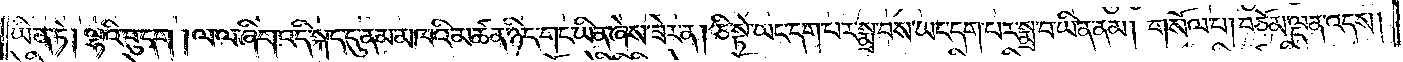ཡིན་ཏེ། ལྷའི་བུ་དག། ལ་ལ་ཞིག་འདི་སྐད་དུ་ནམ་མཁའི་མཚན་ཉིད་གང་ཡིན་ཞེས་ཟེར་ན། ཅི་སྟེ་ཡང་དག་པར་སྨྲ་བས་ཡང་དག་པར་སྨྲ་བ་ཡིན་ནམ། གསོལ་པ། བཅོམ་ལྡན་འདས།
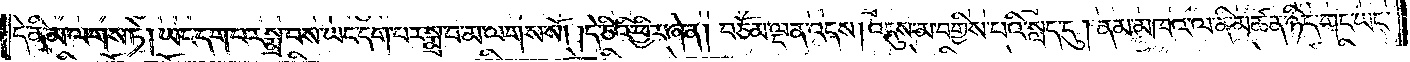དེ་ནི་མ་ལགས་ཏེ། ཡང་དག་པར་སྨྲ་བས་ཡང་དག་པར་སྨྲ་བ་མ་ལགས་སོ། །དེ་ཅིའི་ཕྱིར་ཞེ་ན། བཅོམ་ལྡན་འདས། འདུས་མ་བགྱིས་པའི་སླད་དུ། ནམ་མཁའ་ལ་ནི་མཚན་ཉིད་གང་ཡང་
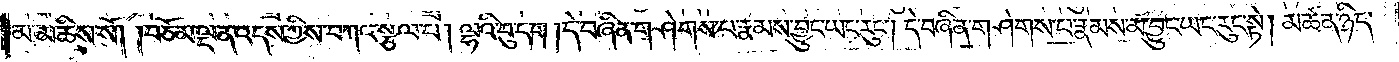མ་མཆིས་སོ། །བཅོམ་ལྡན་འདས་ཀྱིས་བཀའ་སྩལ་པ། ལྷའི་བུ་དག། དེ་བཞིན་གཤེགས་པ་རྣམས་བྱུང་ཡང་རུང༌། དེ་བཞིན་གཤེགས་པ་རྣམས་མ་བྱུང་ཡང་རུང་སྟེ། མཚན་ཉིད་
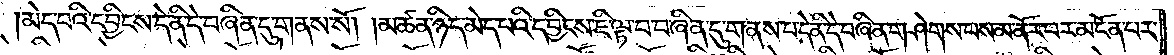མེད་པའི་དབྱིངས་དེ་ནི་དེ་བཞིན་དུ་གནས་སོ། །མཚན་ཉིད་མེད་པའི་དབྱིངས་ཇི་ལྟ་བ་བཞིན་དུ་གནས་པ་དེ་ནི་དེ་བཞིན་གཤེགས་པས་མ་ནོར་བར་མངོན་པར་
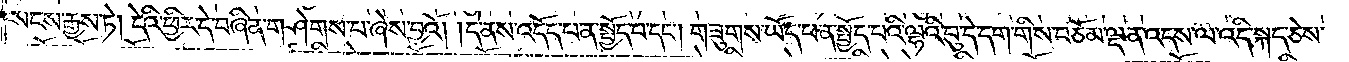སངས་རྒྱས་ཏེ། དེའི་ཕྱིར་དེ་བཞིན་གཤེགས་པ་ཞེས་བྱའོ། །དེ་ནས་འདོད་པ་ན་སྤྱོད་པ་དང༌། གཟུགས་ཡོད་པ་ན་སྤྱོད་པའི་ལྟའི་བུ་དེ་དག་གིས་བཅོམ་ལྡན་འདས་ལ་འདི་སྐད་ཅེས་
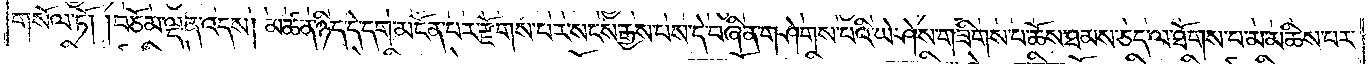གསོལ་ཏོ། །བཅོམ་ལྡན་འདས། མཚན་ཉིད་དེ་དག་མངོན་པར་རྫོགས་པར་སངས་རྒྱས་པས་དེ་བཞིན་གཤེགས་པའི་ཡེ་ཤེས་གཟིགས་པ་ཆོས་ཐམས་ཅད་ལ་ཐོགས་པ་མ་མཆིས་པར་
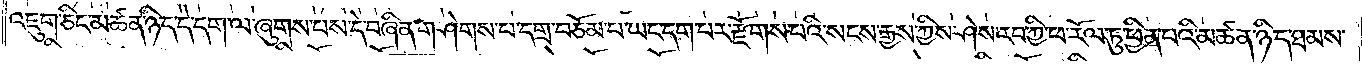འཇུག་ཅིང་མཚན་ཉིད་དེ་དག་ལ་ཞུགས་པས་དེ་བཞིན་གཤེགས་པ་དགྲ་བཅོམ་པ་ཡང་དག་པར་རྫོགས་པའི་སངས་རྒྱས་ཀྱིས་ཤེས་རབ་ཀྱི་ཕ་རོལ་ཏུ་ཕྱིན་པའི་མཚན་ཉིད་ཐམས་
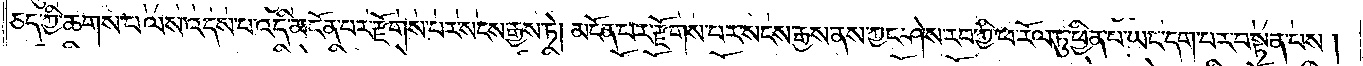ཅད་ཀྱི་ཆགས་པ་ལས་འདས་པ་འདི་མངོན་པར་རྫོགས་པར་སངས་རྒྱས་ཏེ། མངོན་པར་རྫོགས་པར་སངས་རྒྱས་ནས་ཀྱང་ཤེས་རབ་ཀྱི་ཕ་རོལ་ཏུ་ཕྱིན་པ་ཡང་དག་པར་བསྟན་པས།
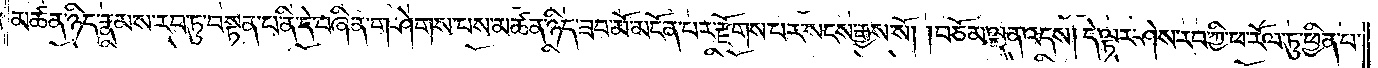མཚན་ཉིད་རྣམས་རབ་ཏུ་བསྟན་པ་ནི་དེ་བཞིན་གཤེགས་པས་མཚན་ཉིད་ཟབ་མོ་མངོན་པར་རྫོགས་པར་སངས་རྒྱས་སོ། །བཅོམ་ལྡན་འདས། དེ་ལྟར་ཤེས་རབ་ཀྱི་ཕ་རོལ་ཏུ་ཕྱིན་པ་
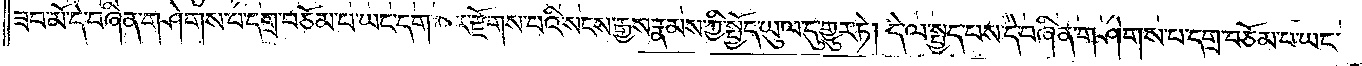ཟབ་མོ་དེ་བཞིན་གཤེགས་པ་དགྲ་བཅོམ་པ་ཡང་དག་པར་རྫོགས་པའི་སངས་རྒྱས་རྣམས་ཀྱི་སྤྱོད་ཡུལ་དུ་གྱུར་ཏེ། དེ་ལ་སྤྱད་པས་དེ་བཞིན་གཤེགས་པ་དགྲ་བཅོམ་པ་ཡང་
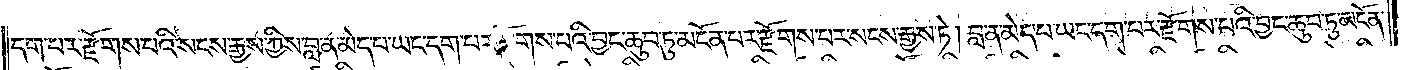དག་པར་རྫོགས་པའི་སངས་རྒྱས་ཀྱི་བླ་ན་མེད་པ་ཡང་དག་པར་རྫོགས་པའི་བྱང་ཆུབ་ཏུ་མངོན་པར་རྫོགས་པར་སངས་རྒྱས་ཏེ། བླ་ན་མེད་པ་ཡང་དག་པར་རྫོགས་པའི་བྱང་ཆུབ་ཏུ་མངོན་
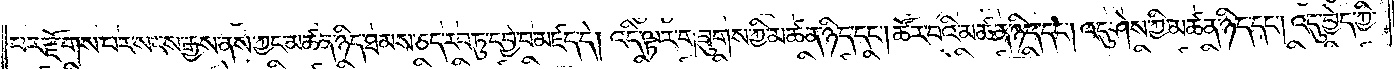པར་རྫོགས་པར་སངས་རྒྱས་ནས་ཀྱང་མཚན་ཉིད་ཐམས་ཅད་རབ་ཏུ་དབྱེ་བ་མཛད་དེ། །འདི་ལྟར་གཟུགས་ཀྱི་མཚན་ཉིད་དང༌། ཚོར་བའི་མཚན་ཉིད་དང༌། འདུ་ཤེས་ཀྱི་མཚན་ཉིད་དང༌། འདུ་བྱེད་ཀྱི་
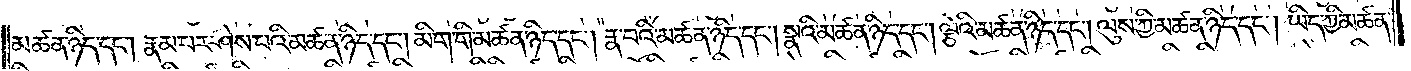མཚན་ཉིད་དང༌། རྣམ་པར་ཤེས་པའི་མཚན་ཉིད་དང༌། མིག་གི་མཚན་ཉིད་དང༌། རྣ་བའི་མཚན་ཉིད་དང༌། སྣའི་མཚན་ཉིད་དང༌། ལྕེའི་མཚན་ཉིད་དང༌། ལུས་ཀྱི་མཚན་ཉིད་དང༌། ཡིད་ཀྱི་མཚན་
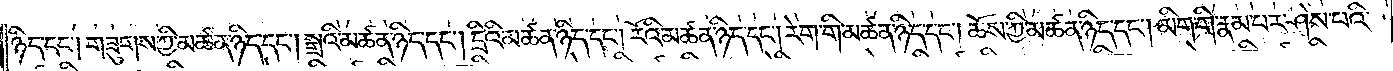ཉིད་དང༌། གཟུགས་ཀྱི་མཚན་ཉིད་དང༌། སྒྲའི་མཚན་ཉིད་དང༌། དྲིའི་མཚན་ཉིད་དང༌། རོའི་མཚན་ཉིད་དང༌། རེག་གི་མཚན་ཉིད་དང༌། ཆོས་ཀྱི་མཚན་ཉིད་དང༌། མིག་གི་རྣམ་པར་ཤེས་པའི་
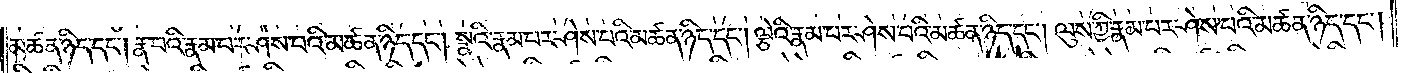མཚན་ཉིད་དང༌། རྣ་བའི་རྣམ་པར་ཤེས་པའི་མཚན་ཉིད་དང༌། སྣའི་རྣམ་པར་ཤེས་པའི་མཚན་ཉིད་དང༌། ལྕེའི་རྣམ་པར་ཤེས་པའི་མཚན་ཉིད་དང༌། ལུས་ཀྱི་རྣམ་པར་ཤེས་པའི་མཚན་ཉིད་དང༌།
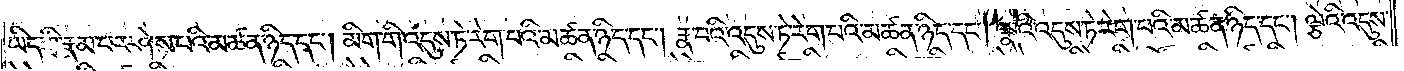ཡིད་ཀྱི་རྣམ་པར་ཤེས་པའི་མཚན་ཉིད་དང༌། མིག་གི་འདུས་ཏེ་རེག་པའི་མཚན་ཉིད་དང༌། རྣ་བའི་འདུས་ཏེ་རེག་པའི་མཚན་ཉིད་དང༌། སྣའི་འདུས་ཏེ་རེག་པའི་མཚན་ཉིད་དང༌། ལྕེའི་འདུས་
